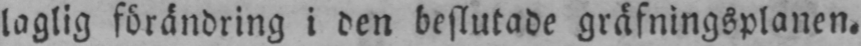laglig förändring i den beslutade gräfningsplanen.
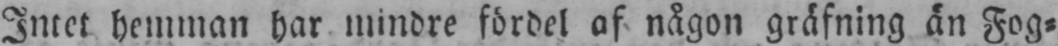Intet hemman har mindre fördel af någon gräfning än Fog-
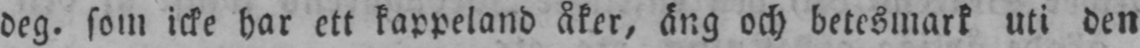deg. som icke har ett kappeland åker, äng och betesmark uti den
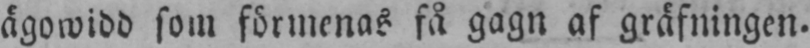ägowidd som förmenas få gagn af gräfningen.
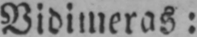Vidimeras:
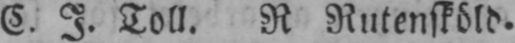C. I. Toll. R Rutensköld.
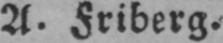A. Friberg.
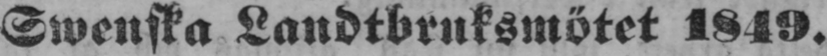Swenska Landtbruksmötet 1849.
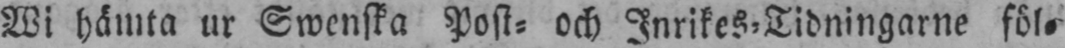Wi hämta ur Swenska Post- och Inrikes-Tidningarne föl-
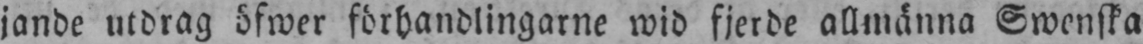jande utdrag öfwer förhandlingarne wid fjerde allmänna Swenska
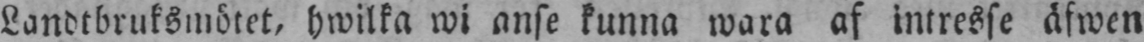Landtbruksmötet, hwilka wi anse kunna wara af intresse äfwen
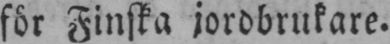för Finska jordbrukare.
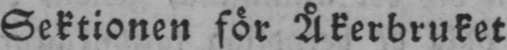Sektionen för Åkerbruket
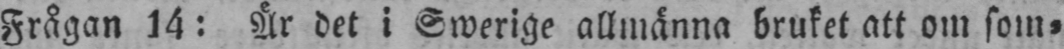Frågan 14: Är det i Swerige allmänna bruket att om som-
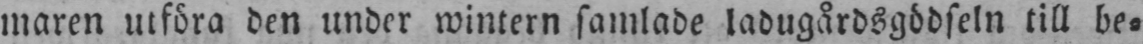maren utföra den under wintern samlade ladugårdsgödseln till be-
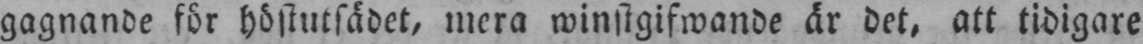gagnande för höstutsädet, mera winstgifwande är det, att tidigare
